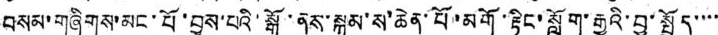བསམ་གཞིགས་མང་པོ་བྱས་པའི་སྒོ་ནས་སྐམ་ས་ཆེན་པོ་མགོ་རྟིང་སློག་རྒྱུའི་བྱ་སྤྱོད་་་་
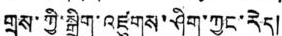གྲས་ཀྱི་སྒྲིག་འཛུགས་ཤིག་ཀྱང་རེད།
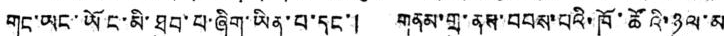གང་ཡང་ཡོང་མི་ཐུབ་པ་ཞིག་ཡིན་པ་དང་། གནམ་གྲུ་ནས་བབས་པའི་ཁོ་ཚོའི་ཉུལ་མ
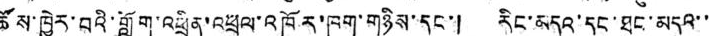ཚོས་ཁྱེར་བའི་གློག་འཕྲིན་འཕྲུལ་འཁོར་ཁག་གཉིས་དང་། རིང་མདའ་དང་ཐུང་མདའ་་
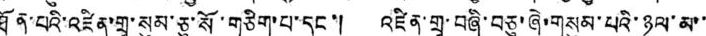ཐོན་པའི་འཛིན་གྲྭ་སུམ་ཅུ་སོ་གཅིག་པ་དང་། འཛིན་གྲྭ་བཞི་བཅུ་ཞེ་གསུམ་པའི་ཉུལ་མ་་
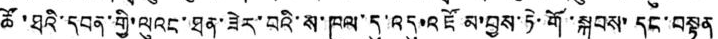ཚོ་ཐའི་དབན་གྱི་ལུའང་ཐན་ཟེར་བའི་ས་ཁུལ་དུ་འདུ་འཛོམ་བྱས་ཏེ་གོ་སྐབས་དང་བསྟུན
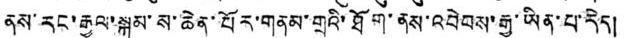ནས་རང་རྒྱལ་སྐམ་ས་ཆེན་པོར་གནམ་གྲུའི་ཐོག་ནས་འབེབས་རྒྱུ་ཡིན་པ་རེད།
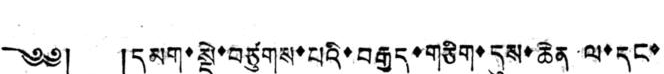༄༅། །དམག་སྡེ་བཙུགས་པའི་བརྒྱད་གཅིག་དུས་ཆེན ལ་དང་
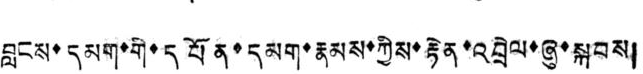བླངས་དམག་གི་དཔོན་དམག་རྣམས་ཀྱིས་རྟེན་འབྲེལ་ཞུ་སྐབས།
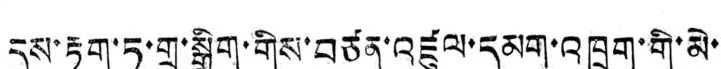དུས་རྟག་ཏུ་གྲ་སྒྲིག་གིས་བཙན་འཛུལ་དམག་འཁྲུག་གི་མེ་
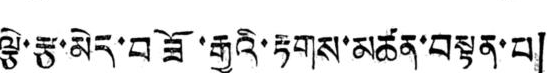ལྕེ་རྩ་མེད་བཟོ་རྒྱུའི་རྟགས་མཚན་བསྟན་པ།
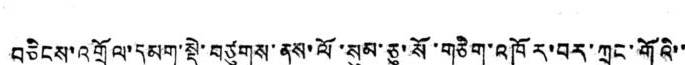བཅིངས་འགྲོལ་དམག་སྡེ་བཙུགས་ནས་ལོ་སུམ་ཅུ་སོ་གཅིག་འཁོར་བར་ཀྲུང་གོའི་་
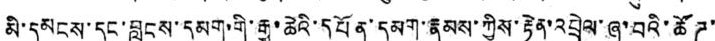མི་དམངས་དང་བླངས་དམག་གི་རྒྱ་ཆེའི་དཔོན་དམག་རྣམས་ཀྱིས་རྟེན་འབྲེལ་ཞུ་བའི་ཚོཊ་
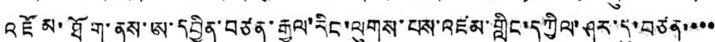འཛོམ་ཐོག་ནས་ཨ་དབྱིན་བཙན་རྒྱལ་རིང་ལུགས་པས་འཛམ་གླིང་དཀྱིལ་ཤར་དུ་བཙན་་་་
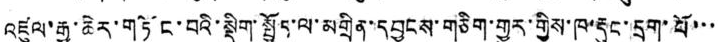འཛུལ་རྒྱ་ཆེར་གཏོང་བའི་སྡིག་སྤྱོད་ལ་མགྲིན་དབྱངས་གཅིག་གྱུར་གྱིས་ཁ་རྡུང་དྲག་པོ་་་
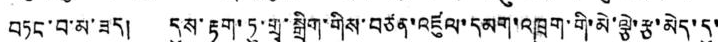བཏང་བ་མ་ཟད། དུས་རྟག་ཏུ་གྲྭ་སྒྲིག་གིས་བཙན་འཛུལ་དམག་འཁྲུག་གི་མེ་ལྕེ་རྩ་མེད་དུ་
